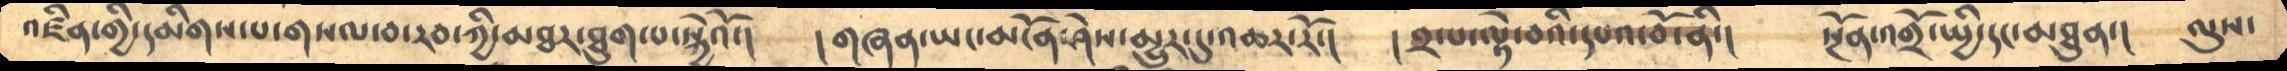འཛིན་གྱི་དམིགས་པ་གསལ་བ་རབ་ཀྱི་མཐར་ཐུག་པ་སྐྱེའོ་།      །གཞན་ཡང་མངོན་ཤེས་མྱུར་དུ་འཆར་རོ་།      །༢་པ་ལྟེ་བའི་དཔའ་བོ་ནི་།     སྔོན་འགྲོ་སྤྱི་དང་མཐུན་།   ལུས་
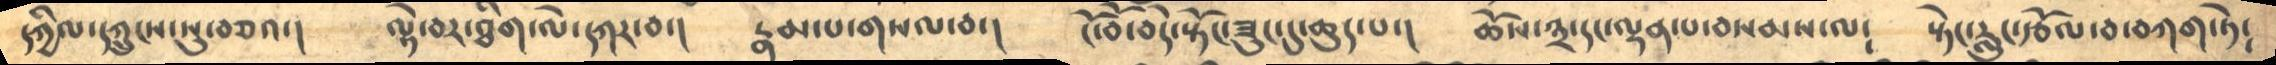དཀྱིལ་དཀྲུངས་སུ་བཅའ་།     ལྟེ་བར་ཐིག་ལེ་དཀར་བ་།      རྣམ་པ་གསལ་བ་།    ངོ་བོ་བདེ་སྟོང་ཟུང་དུ་ཆུད་པ་།     ཆོས་༣་དང་ལྡན་པ་བསམ་ལ༴     སྟེང་རླུང་རྩོལ་བ་བཀག་ཏེ༴
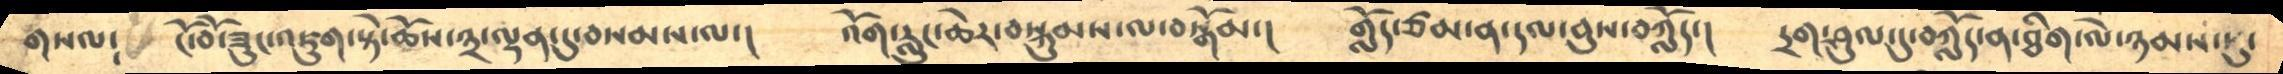གསལ༴    ངོ་བོ་ཟུང་འཇུག་སྟེ་ཆོས་༣་ལྡན་དུ་བསམས་ལ་།     འོག་རླུང་ཆེར་བསྐུམས་ལ་བསྒོམ་།     གློད་ཙམ་ན་དལ་བུས་བཀློད་།    དྲག་ཤུལ་དུ་བཀློད་ན་ཐིག་ལེ་ཉམས་སུ་
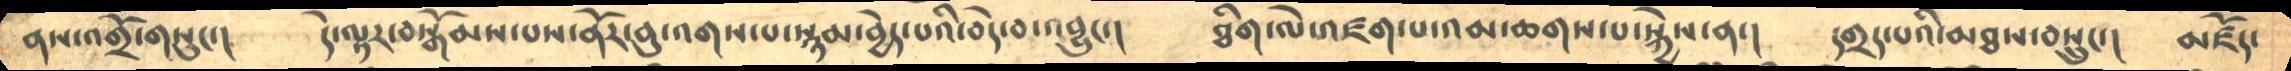ནས་འགྲོ་གསུང་།     དེ་ལྟར་བསྒོམས་པས་ནོར་བུ་འགས་པ་སྙམ་བྱེད་པའི་བདེ་བ་འབྱུང་།     ཐིག་ལེ་འཛག་པ་འམ་ཆགས་པ་སྐྱེས་ན་།    དགྲད་པའི་མཐས་བསྲུང་།    མཛོད་
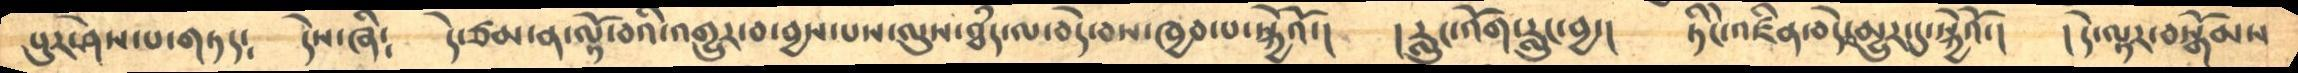པུར་ཤེས་པ་གཏད༴    དེས་ཞི༴       དེ་ཙམ་ན་ལྟོ་བའི་འགྱུར་བ་བྱས་པས་ལུས་ཐཾད་ལ་བདེ་བས་ཁྱབ་པ་སྐྱེའོ་།     །རླུང་འོག་རླུང་བྱ་།    ཏིངེ་འཛིན་བདེ་མྱུར་དུ་སྐྱེའོ་།    །དེ་ལྟར་བསྒོམས
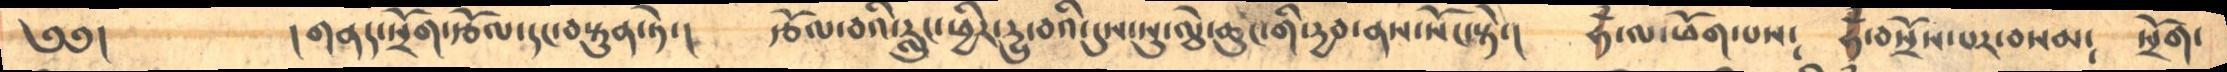༄༅།       །གནད་སྲོག་རྩོལ་དང་བསྟུན་ཏེ་།       རྩོལ་བའི་རླུང་ཕྱིར་དྱུ་བའི་དུས་སུ་ལྕེ་ཆུང་གི་དྱབ་ནས་སོང་སྟེ་།      ཧྃ་ལ་ཕོག་པས༴     ཧྃ་བསྲོས་པར་བསམ༴  སྲོག་
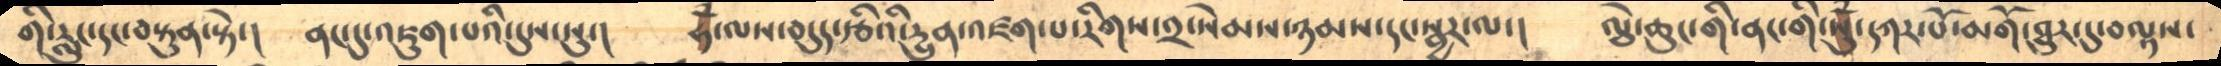གི་རླུང་དང་བསྟུན་སྟེ་།       ནང་དུ་འཇུག་པའི་དུས་སུ་།      ཧྃ་ལས་བདུད་རྩིའི་དྱུན་འཛག་པ་རིགས་༢་སེམས་ཉམས་དང་སྦྱར་ལ་།     ལྕེ་ཆུང་གི་ནང་གི་ཧཱུྃ་དཀར་པོ་མགོ་ཐུར་དུ་བལྟས་
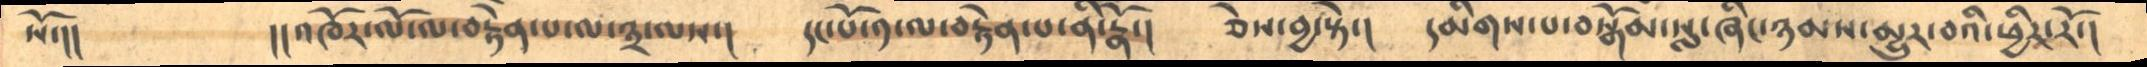སོ་།།     །།འཁོར་ལོ་ལ་བརྟེན་པ་ལ་༣་ལས་།     དང་པོ་༡་ལ་བརྟེན་པ་ནི་རྣོ་།     ཅེས་བྱ་སྟེ་།    དམིགས་པ་བསྒོམ་སླ་ཞིང་ཉམས་མྱུར་བའི་ཕྱིར་རོ་།
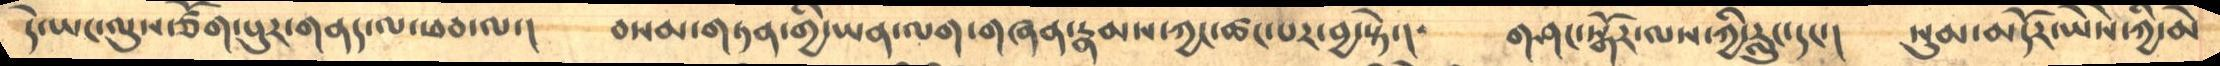དེ་ཡང་ལུས་ཙོག་པུར་གནད་ལ་ཕབ་ལ་།    བསམ་གཏན་གྱི་ཡན་ལག་གཞན་རྣམས་ཀྱང་ཚང་པར་བྱ་སྟེ་།     གཤང་སྒོར་ལས་ཀྱི་རླུང་དང་།     སུམ་མདོར་ཡཻས་ཀྱི་མེ
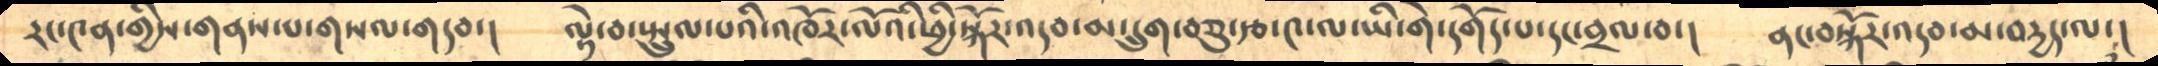རང་༤ན་གྱིས་གནས་པ་གསལ་གདབ་།     ལྟེ་བ་སྤྲུལ་པའི་འཁོར་ལོའི་ཕྱི་སྐོར་འདབ་མ་དྲུག་བཅུ་རྩ་༤་ལ་ཡི་གེ་དགོད་པ་དང་བྲལ་བ་།     ནང་བསྐོར་འདབ་མ་བདྱད་ལ་།
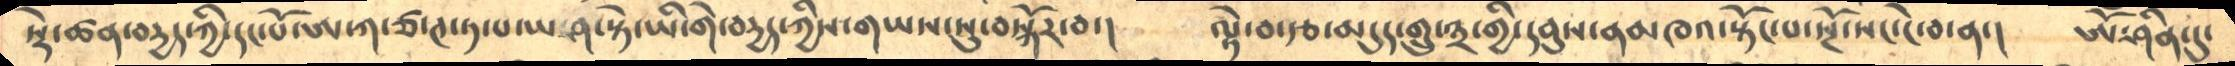སྡེ་ཚན་བདྱད་ཀྱི་དང་པོ་ཨ་ཀ་ཙ་ཊ་ཏ་པ་ཡ་ཤ་སྟེ་ཡི་གེ་བདྱད་ཀྱིས་གཡས་སུ་བསྐོར་བ་།     ལྟེ་བ་རྩ་མདུད་གྲུ་༣་གྱི་དབུས་ནམཁའ་སྟོང་པ་སྔོ་སང་ངེ་བ་ན་།     ཨོ་ཤིན་དུ་
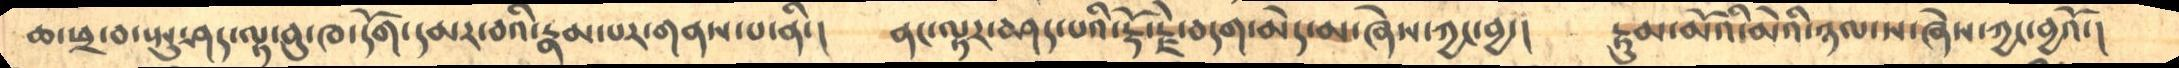ཆ་ཕྲ་བ་སྤུ་ཤད་ལྟ་བུ་ཁ་དོག་དམར་བའི་རྣམ་པར་གནས་པ་ནི་།      ནང་ལྟར་བཤད་པའི་རྡོ་རྗེ་བདག་མེད་མ་ཞེས་ཀྱང་བྱ་།     རྟུམ་མོའི་མེའི་ཉལ་ས་ཞེས་ཀྱང་བྱའོ་།
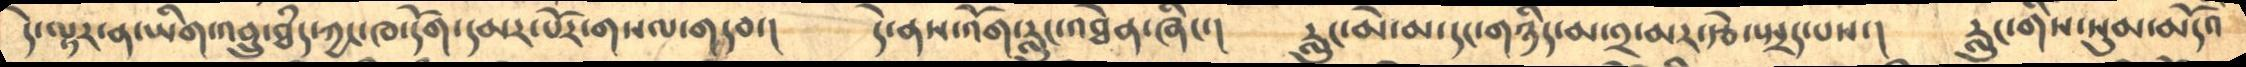དེ་ལྟར་ན་ཡིག་འབྲུ་ཐཾད་ཀྱང་ཁ་དོག་དམར་པོར་གསལ་གདབ་།    དེ་ནས་འོག་རླུང་འཐེན་ཞིང་།      རླུང་མེ་མ་དང་གཉིད་མ་༢་མར་རྩེ་སྤྲད་པས་།    རླུང་གིས་སུམ་མདོའ
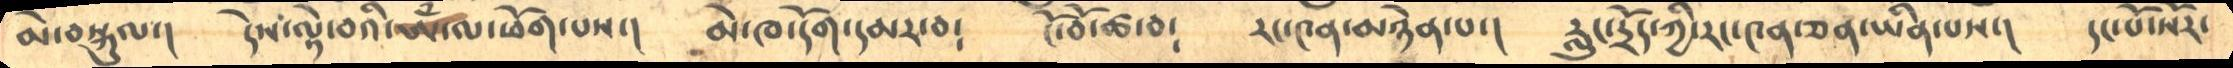མེ་བསྐུལ་།       དེས་ལྟེ་བའི་ཨོཾ་ལ་ཕོག་པས་།     མེ་ཁ་དོག་དམར་བ༴    ངོ་བོ་ཚ་བ༴    རང་༤ན་མཉེན་པ་།    རླུང་དྲོད་ཀྱི་རང་༤ན་ཅན་ཡིན་པས་།    དང་པོ་སོར་
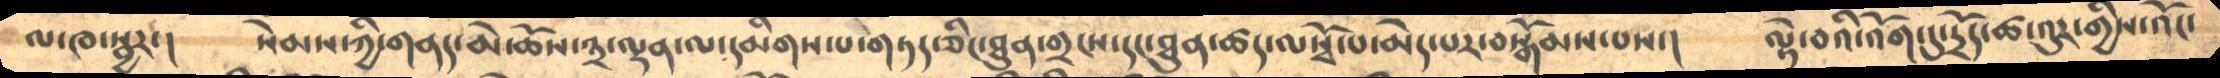ལ་ཁ་སྦྱར་།      སེམས་ཀྱི་གནད་མེ་ཆོས་༣་ལྡན་ལ་དམིགས་པ་གཏད་ཅིང་ཐུན་གྲངས་དང་ཐུན་ཚད་ལསྭོ་པ་མེད་པར་བསྒོམས་པས་།     ལྟེ་བའི་འོག་དུ་དྲོད་ཚ་འུར་གྱིས་འོང་
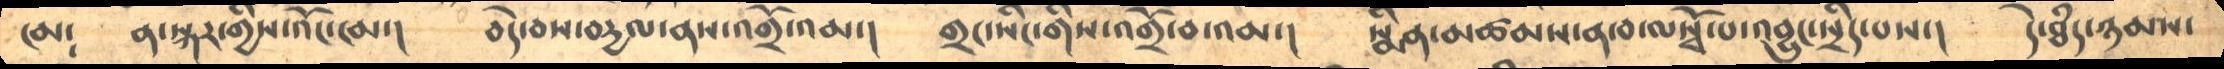ངམ༴     ན་སྐར་གྱིས་འོང་ངམ་།     བདེ་བས་བདྱལ་ནས་འགྲོ་འམ་།      གྲང་སིང་གིས་འགྲོ་བ་འམ་། སྨིན་མཚམས་ན་བ་ལསྭོ་པ་འབྱུང་སྲིད་པས་།    དེ་ཐཾད་ཉམས་
